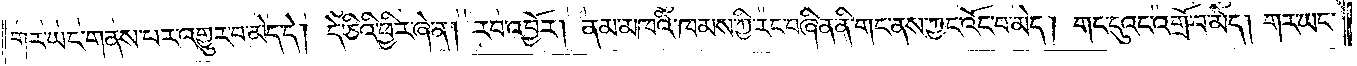གར་ཡང་གནས་པར་འགྱུར་བ་མེད་དེ། དེ་ཅིའི་ཕྱིར་ཞེ་ན། རབ་འབྱོར། ནམ་མཁའི་ཁམས་ཀྱི་རང་བཞིན་ནི་གང་ནས་ཀྱང་འོང་བ་མེད། གང་དུའང་འགྲོ་བ་མེད། གར་ཡང་
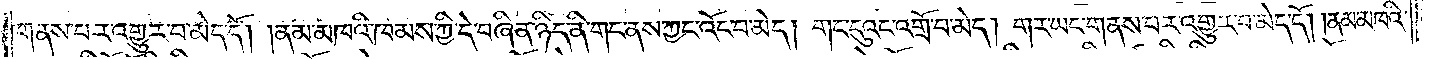གནས་པར་འགྱུར་བ་མེད་དོ། །ནམ་མཁའི་ཁམས་ཀྱི་དེ་བཞིན་ཉིད་ནི་གང་ནས་ཀྱང་འོང་བ་མེད། གང་དུའང་འགྲོ་བ་མེད། གར་ཡང་གནས་པར་འགྱུར་བ་མེད་དོ། །ནམ་མཁའ་
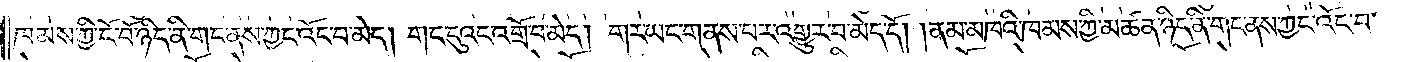ཁམས་ཀྱི་ངོ་བོ་ཉིད་ནི་གང་ནས་ཀྱང་འོང་བ་མེད། གང་དུའང་འགྲོ་བ་མེད། གར་ཡང་གནས་པར་འགྱུར་བ་མེད་དོ། །ནམ་མཁའི་ཁམས་ཀྱི་མཚན་ཉིད་ནི་གང་ནས་ཀྱང་འོང་བ་
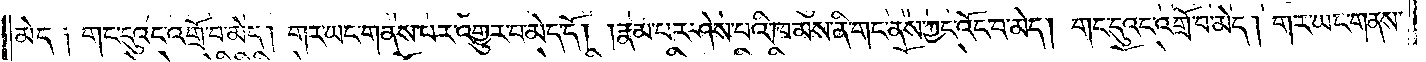མེད། གང་དུའང་འགྲོ་བ་མེད། གར་ཡང་གནས་པར་འགྱུར་བ་མེད་དོ། །རྣམ་པར་ཤེས་པའི་ཁམས་ནི་གང་ནས་ཀྱང་འོང་བ་མེད། གང་དུའང་འགྲོ་བ་མེད། གར་ཡང་གནས་
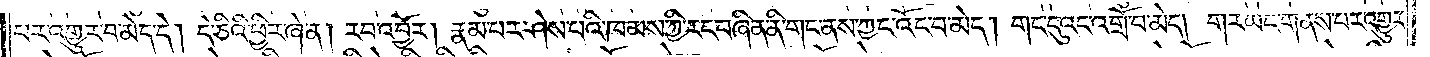པར་འགྱུར་བ་མེད་དེ། དེ་ཅིའི་ཕྱིར་ཞེ་ན། རབ་འབྱོར། རྣམ་པར་ཤེས་པའི་ཁམས་ཀྱི་རང་བཞིན་ནི་གང་ནས་ཀྱང་འོང་བ་མེད། གང་དུའང་འགྲོ་བ་མེད། གར་ཡང་གནས་པར་འགྱུར་
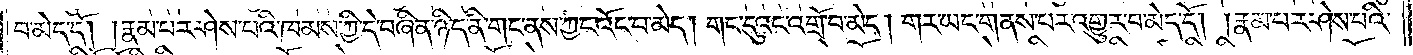བ་མེད་དོ། །རྣམ་པར་ཤེས་པའི་ཁམས་ཀྱི་དེ་བཞིན་ཉིད་ནི་གང་ནས་ཀྱང་འོང་བ་མེད། གང་དུའང་འགྲོ་བ་མེད། གར་ཡང་གནས་པར་འགྱུར་བ་མེད་དོ། །རྣམ་པར་ཤེས་པའི་
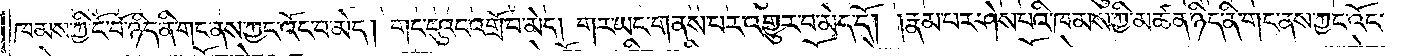ཁམས་ཀྱི་ངོ་བོ་ཉིད་ནི་གང་ནས་ཀྱང་འོང་བ་མེད། གང་དུའང་འགྲོ་བ་མེད། གར་ཡང་གནས་པར་འགྱུར་བ་མེད་དོ། །རྣམ་པར་ཤེས་པའི་ཁམས་ཀྱི་མཚན་ཉིད་ནི་གང་ནས་ཀྱང་འོང་
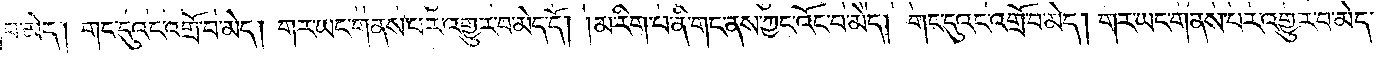བ་མེད། གང་དུའང་འགྲོ་བ་མེད། གར་ཡང་གནས་པར་འགྱུར་བ་མེད་དོ། །མ་རིག་པ་ནི་གང་ནས་ཀྱང་འོང་བ་མེད། གང་དུའང་འགྲོ་བ་མེད། གར་ཡང་གནས་པར་འགྱུར་བ་མེད་
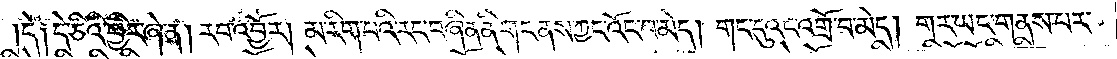དེ། དེ་ཅིའི་ཕྱིར་ཞེ་ན། རབ་འབྱོར། མ་རིག་པའི་རང་བཞིན་ནི་གང་ནས་ཀྱང་འོང་བ་མེད། གང་དུའང་འགྲོ་བ་མེད། གར་ཡང་གནས་པར་
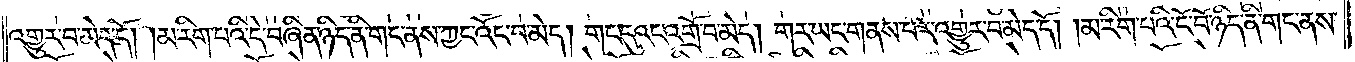འགྱུར་བ་མེད་དོ། །མ་རིག་བའི་དེ་བཞིན་ཉིད་ནི་གང་ནས་ཀྱང་འོང་བ་མེད། གང་དུའང་འགྲོ་བ་མེད། གར་ཡང་གནས་པར་འགྱུར་བ་མེད་དོ། །མ་རིག་པའི་ངོ་བོ་ཉིད་ནི་གང་ནས་
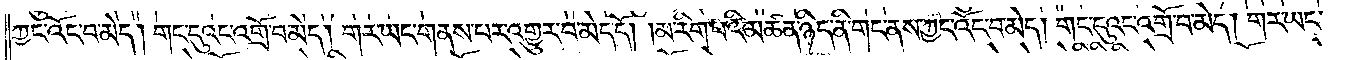ཀྱང་འོང་བ་མེད། གང་དུའང་འགྲོ་བ་མེད། གར་ཡང་གནས་པར་འགྱུར་བ་མེད་དོ། །མ་རིག་པའི་མཚན་ཉིད་ནི་གང་ནས་ཀྱང་འོང་བ་མེད། གང་དུའང་འགྲོ་བ་མེད། གར་ཡང་
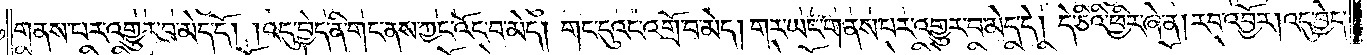གནས་པར་འགྱུར་བ་མེད་དོ། །འདུ་བྱེད་ནི་གང་ནས་ཀྱང་འོང་བ་མེད། གང་དུའང་འགྲོ་བ་མེད། གར་ཡང་གནས་པར་འགྱུར་བ་མེད་དེ། དེ་ཅིའི་ཕྱིར་ཞེ་ན། རབ་འབྱོར། འདུ་བྱེད་
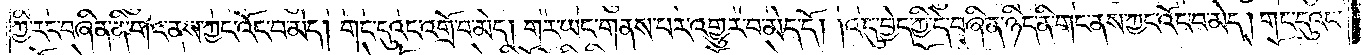ཀྱི་རང་བཞིན་ནི་གང་ནས་ཀྱང་འོང་བ་མེད། གང་དུའང་འགྲོ་བ་མེད། གར་ཡང་གནས་པར་འགྱུར་བ་མེད་དོ། །འདུ་བྱེད་ཀྱི་དེ་བཞིན་ཉིད་ནི་གང་ནས་ཀྱང་འོང་བ་མེད། གང་དུའང་
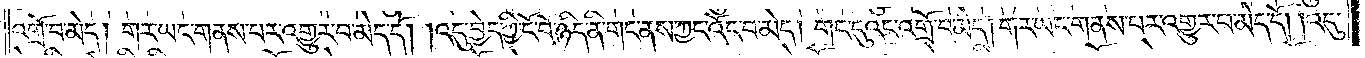འགྲོ་བ་མེད། གར་ཡང་གནས་པར་འགྱུར་བ་མེད་དོ། །འདུ་བྱེད་ཀྱི་ངོ་བོ་ཉིད་ནི་གང་ནས་ཀྱང་འོང་བ་མེད། གང་དུའང་འགྲོ་བ་མེད། གར་ཡང་གནས་པར་འགྱུར་བ་མེད་དོ། །འདུ་
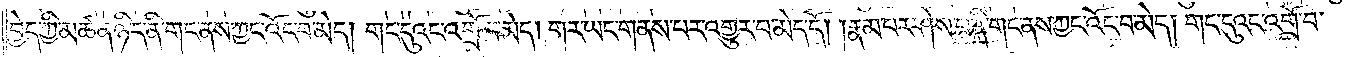བྱེད་ཀྱི་མཚན་ཉིད་ནི་གང་ནས་ཀྱང་འོང་བ་མེད། གང་དུའང་འགྲོ་བ་མེད། གར་ཡང་གནས་པར་འགྱུར་བ་མེད་དོ། །རྣམ་པར་ཤེས་པ་ནི་གང་ནས་ཀྱང་འོང་བ་མེད། གང་དུའང་འགྲོ་བ་
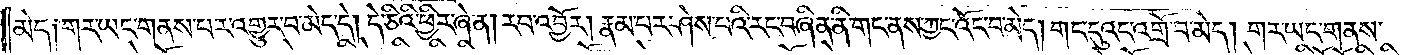མེད། གར་ཡང་གནས་པར་འགྱུར་བ་མེད་དེ། དེ་ཅིའི་ཕྱིར་ཞེ་ན། རབ་འབྱོར། རྣམ་པར་ཤེས་པའི་རང་བཞིན་ནི་གང་ནས་ཀྱང་འོང་བ་མེད། གང་དུའང་འགྲོ་བ་མེད། གར་ཡང་གནས་
